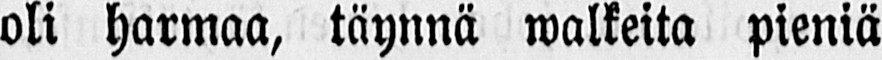oli harmaa, täynnä walkeita pieniä
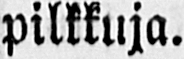pilkkuja.
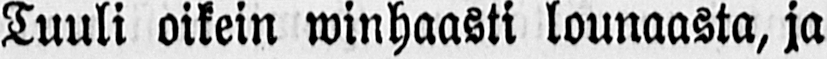Tuuli oikein winhaasti lounaasta, ja
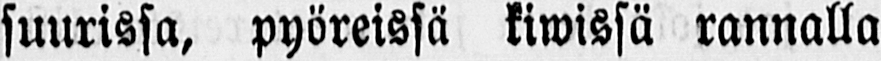suurissa, pyöreissä kiwissä rannalla
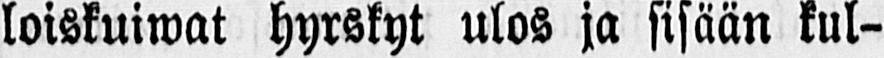loiskuiwat hyrskyt ulos ja sisään kul-
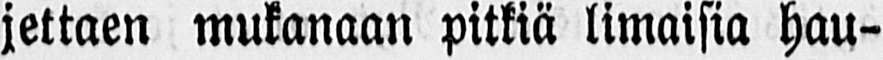jettaen mukanaan pitkiä limaisia hau-
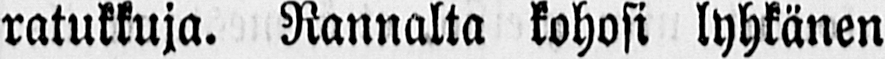ratukkuja. Rannalta kohosi lyhkänen
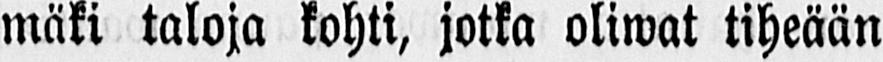mäki taloja kohti, jotka oliwat tiheään
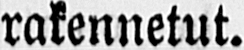rakennetut.
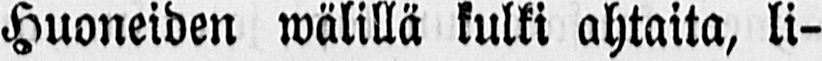Huoneiden wälillä kulki ahtaita, li-
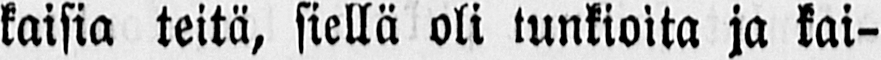kaisia teitä, siellä oli tunkioita ja kai-
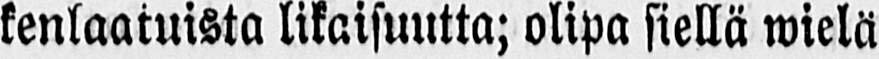kenlaatuista likaisuutta; olipa siellä wielä
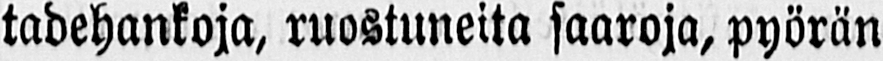tadehankoja, ruostuneita saaroja, pyörän
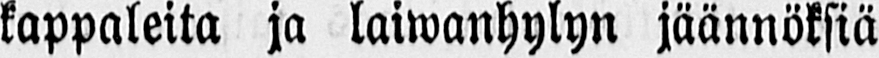kappaleita ja laiwanhylyn jäännöksiä
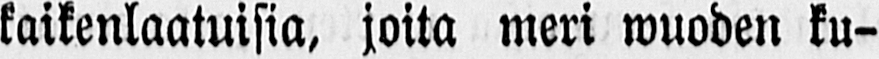kaikenlaatuisia, joita meri wuoden ku-
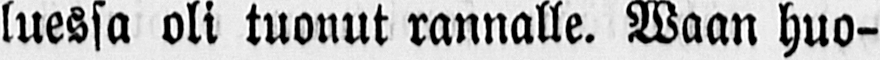luessa oli tuonut rannalle. Waan huo-
